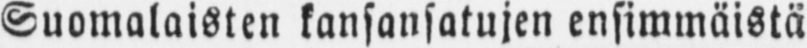Suomalaisten kansansatujen ensimmäistä
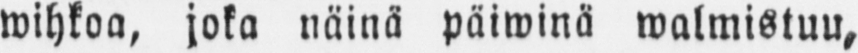wihkoa, joka näinä päiwinä walmistuu,
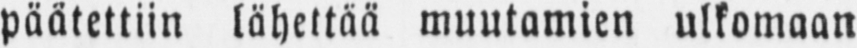päätettiin lähettää muutamien ulkomaan
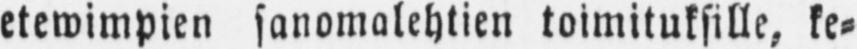etewimpien sanomalehtien toimituksille, ke-
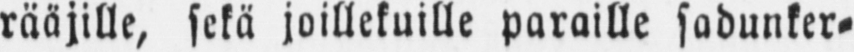rääjille, sekä joillekuille paraille sadunker-
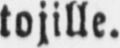tojille.
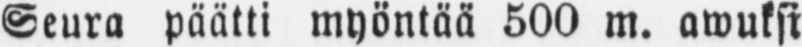Seura päätti myöntää 500 m. awuksi
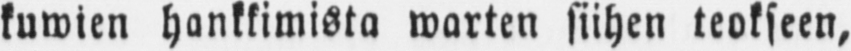kuwien hankkimista warten siihen teokseen,
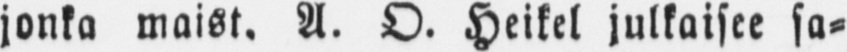jonka maist. A. O. Heikel julkaisee sa-
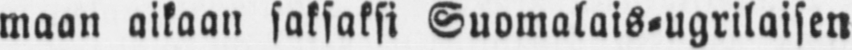maan aikaan saksaksi Suomalais-ugrilaisen
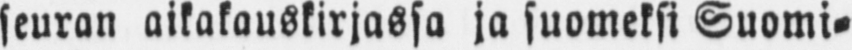seuran aikakauskirjassa ja suomeksi Suomi-
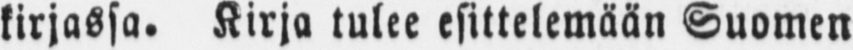kirjassa. Kirja tulee esittelemään Suomen
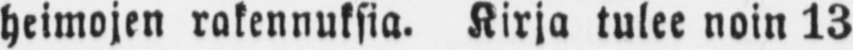heimojen rakennuksia. Kirja tulee noin 13
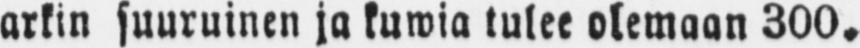arkin suuruinen ja kuwia tulee olemaan 300.
